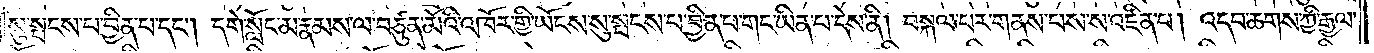སུ་སྤངས་པ་བྱིན་པ་དང༌། དགེ་སློང་མ་རྣམས་ལ་བཙུན་མོའི་འཁོར་གྱི་ཡོངས་སུ་སྤངས་པ་བྱིན་པ་གང་ཡིན་པ་དེས་ནི། བསྐལ་པར་གནས་པས་ས་འཛིན་པ། འདབ་ཆགས་ཀྱི་རྒྱལ་
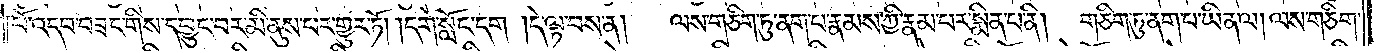པོ་འདབ་བཟང་གིས་དབྱུང་བར་མི་ནུས་པར་གྱུར་ཏོ། །དགེ་སློང་དག །དེ་ལྟ་བས་ན། ལས་གཅིག་ཏུ་ནག་པ་རྣམས་ཀྱི་རྣམ་པར་སྨིན་པ་ནི། གཅིག་ཏུ་ནག་པ་ཡིན་ལ། ལས་གཅིག་
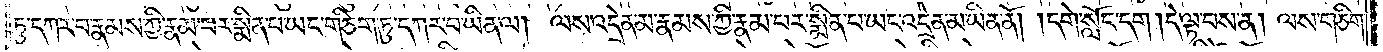ཏུ་དཀར་བ་རྣམས་ཀྱི་རྣམ་པར་སྨིན་པ་ཡང་གཅིག་ཏུ་དཀར་བ་ཡིན་ལ། ལས་འདྲེན་མ་རྣམས་ཀྱི་རྣམ་པར་སྨིན་པ་ཡང་འདྲེན་མ་ཡིན་ནོ། །དགེ་སློང་དག །དེ་ལྟ་བས་ན། ལས་གཅིག་
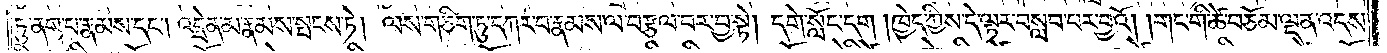ཏུ་ནག་པ་རྣམས་དང༌། འདྲེན་མ་རྣམས་སྤངས་ཏེ། ལས་གཅིག་ཏུ་དཀར་བ་རྣམས་ལ་བརྩལ་བར་བྱ་སྟེ། དགེ་སློང་དག །ཁྱེད་ཀྱིས་དེ་ལྟར་བསླབ་པར་བྱའོ། །གང་གི་ཚེ་བཅོམ་ལྡན་འདས་
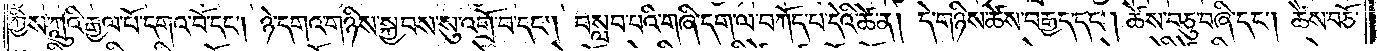ཀྱིས་ཀླུའི་རྒྱལ་པོ་དགའ་པོ་དང༌། ཉེ་དགའ་གཉིས་སྐྱབས་སུ་འགྲོ་བ་དང༌། བསླབ་པའི་གཞི་དག་ལ་བཀོད་པ་དེའི་ཚེ་ན། དེ་གཉིས་ཚེས་བརྒྱད་དང༌། ཚེས་བཅུ་བཞི་དང༌། ཚེས་བཅོ་
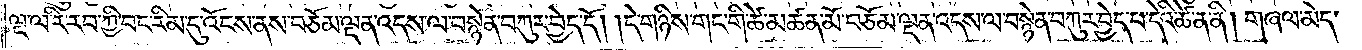ལྔ་ལ་རི་རབ་ཀྱི་བང་རིམ་དུ་འོངས་ནས་བཅོམ་ལྡན་འདས་ལ་བསྙེན་བཀུར་བྱེད་དོ། །དེ་གཉིས་གང་གི་ཚེ་མཚན་མོ་བཅོམ་ལྡན་འདས་ལ་བསྙེན་བཀུར་བྱེད་པ་དེའི་ཚེ་ན་ནི། གཞལ་མེད་
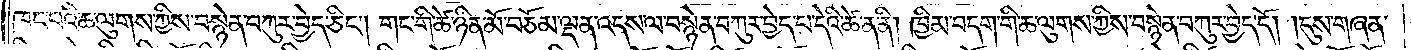ཁང་པའི་ཆ་ལུགས་ཀྱིས་བསྙེན་བཀུར་བྱེད་ཅིང༌། གང་གི་ཚེ་ཉིན་མོ་བཅོམ་ལྡན་འདས་ལ་བསྙེན་བཀུར་བྱེད་པ་དེའི་ཚེ་ན་ནི། ཁྱིམ་བདག་གི་ཆ་ལུགས་ཀྱིས་བསྙེན་བཀུར་བྱེད་དོ། །དུས་གཞན་
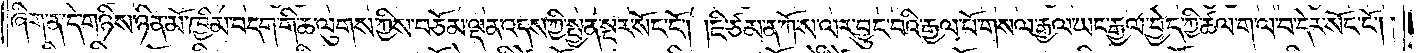ཞིག་ན་དེ་གཉིས་ཉིན་མོ་ཁྱིམ་བདག་གི་ཆ་ལུགས་ཀྱིས་བཅོམ་ལྡན་འདས་ཀྱི་སྤྱན་སྔར་སོང་ངོ༌། །ཇི་ཙམ་ན་ཀོ་ས་ལར་བྱུང་བའི་རྒྱལ་པོ་གསལ་རྒྱལ་ཡང་རྒྱལ་བྱེད་ཀྱི་ཚལ་ག་ལ་བ་དེར་སོང་ངོ༌། །
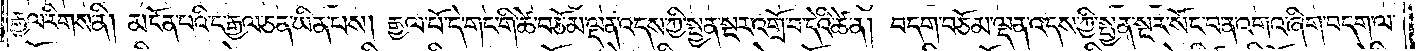རྒྱལ་རིགས་ནི། མངོན་པའི་ང་རྒྱལ་ཅན་ཡིན་པས། རྒྱལ་པོ་དེ་གང་གི་ཚེ་བཅོམ་ལྡན་འདས་ཀྱི་སྤྱན་སྔར་འགྲོ་བ་དེའི་ཚེ་ན། བདག་བཅོམ་ལྡན་འདས་ཀྱི་སྤྱན་སྔར་སོང་བ་ན་འགའ་ཞིག་བདག་ལ་
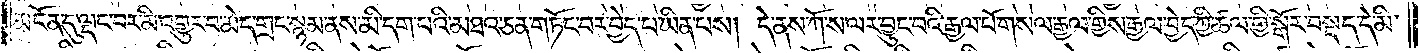མངོན་དུ་ལྡང་བར་མི་འགྱུར་བ་མེད་གྲང་སྙམ་ནས་མི་དག་པའི་མཐའ་ཅན་གཏོང་བར་བྱེད་པ་ཡིན་པས། དེ་ནས་ཀོ་ས་ལར་བྱུང་བའི་རྒྱལ་པོ་གསར་རྒྱལ་གྱིས་རྒྱལ་བྱེད་ཀྱི་ཚལ་གྱི་སྒོར་བསྡད་དེ་མི་
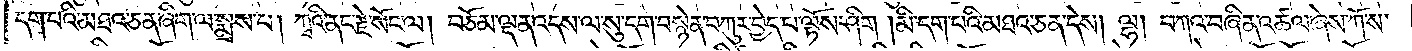དག་པའི་མཐའ་ཅན་ཞིག་ལ་སྨྲས་པ། ཀྭའི་ནང་རྗེ་སོང་ལ། བཅོམ་ལྡན་འདས་ལ་སུ་དག་བསྙེན་བཀུར་བྱེད་པ་ལྟོས་ཤིག །མི་དག་པའི་མཐའ་ཅན་དེས། ལྷ། བཀའ་བཞིན་འཚལ་ཞེས་ཀོ་ས་
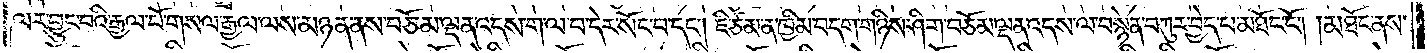ལར་བྱུང་བའི་རྒྱལ་པོ་གསལ་རྒྱལ་ལས་མཉན་ནས་བཅོམ་ལྡན་འདས་ག་ལ་བ་དེར་སོང་བ་དང༌། ཇི་ཙམ་ན་ཁྱིམ་བདག་གཉིས་ཤིག་བཅོམ་ལྡན་འདས་ལ་བསྙེན་བཀུར་བྱེད་པ་མཐོང་ངོ༌། །མཐོང་ནས་
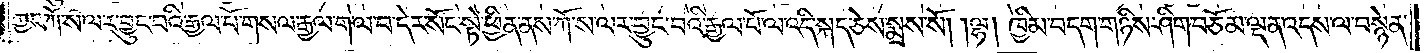ཀྱང་ཀོ་ས་ལར་བྱུང་བའི་རྒྱལ་པོ་གསལ་རྒྱལ་ག་ལ་བ་དེར་སོང་སྟེ་ཕྱིན་ནས་གོ་ས་ལར་བྱུང་བའི་རྒྱལ་པོ་ལ་འདི་སྐད་ཅེས་སྨྲས་སོ། །ལྷ། ཁྱིམ་བདག་གཉིས་ཤིག་བཅོམ་ལྡན་འདས་ལ་བསྙེན་
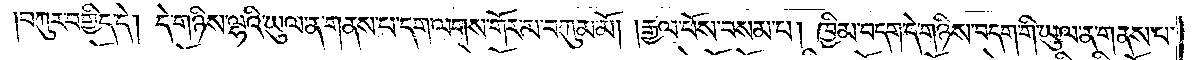བཀུར་བགྱིད་དེ། དེ་གཉིས་ལྷའི་ཡུལ་ན་གནས་པ་དག་ལགས་གོར་མ་བཀུམ་མོ། །རྒྱལ་པོས་བསམ་པ། ཁྱིམ་བདག་དེ་གཉིས་བདག་གི་ཡུལ་ན་གནས་པ་
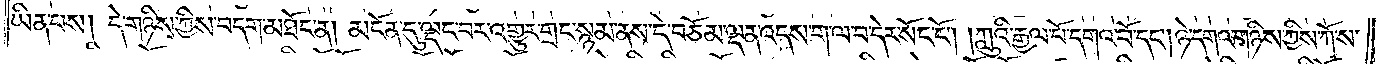ཡིན་པས། དེ་གཉིས་ཀྱིས་བདག་མཐོང་ན། མངོན་དུ་ལྡང་བར་འགྱུར་གྲང་སྙམ་ནས་དེ་བཅོམ་ལྡན་འདས་ག་ལ་བ་དེར་སོང་ངོ༌། །ཀླུའི་རྒྱལ་པོ་དགའ་བོ་དང༌། ཉེ་དགའ་གཉིས་ཀྱིས་ཀོ་ས་
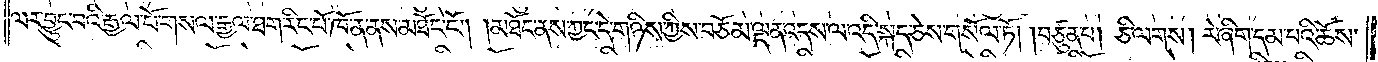ལར་བྱུང་བའི་རྒྱལ་པོ་གསལ་རྒྱལ་ཐག་རིང་པོ་ཁོ་ན་ནས་མཐོང་ངོ༌། །མཐོང་ནས་ཀྱང་དེ་གཉིས་ཀྱིས་བཅོམ་ལྡན་འདས་ལ་འདི་སྐད་ཅེས་གསོལ་ཏོ། །བཙུན་པ། ཅི་ལགས། རེ་ཞིག་དམ་པའི་ཆོས་
